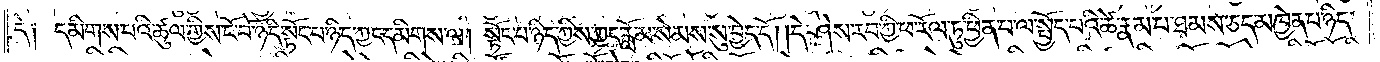དེ༑ དམིགས་པའི་ཚུལ་གྱིས་ངོ་བོ་ཉིད་སྟོང་པ་ཉིད་ཀྱང་དམིགས་ལ། སྟོང་པ་ཉིད་ཀྱིས་ཀྱང་རློམ་སེམས་སུ་བྱེད་དོ། །དེ་ཤེས་རབ་ཀྱི་ཕ་རོལ་ཏུ་ཕྱིན་པ་ལ་སྤྱོད་པའི་ཚེ་རྣམ་པ་ཐམས་ཅད་མཁྱེན་པ་ཉིད་
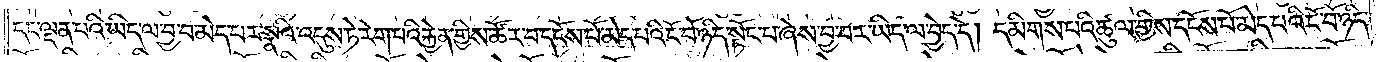དང་ལྡན་པའི་ཡིད་ལ་བྱ་བ་མེད་པར་སྣའི་འདུས་ཏེ་རེག་པའི་རྐྱེན་གྱིས་ཚོར་བ་དངོས་པོ་མེད་པའི་ངོ་བོ་ཉིད་སྟོང་པ་ཞེས་བྱ་བར་ཡིད་ལ་བྱེད་དེ། དམིགས་པའི་ཚུལ་གྱིས་དངོས་པོ་མེད་པའི་ངོ་བོ་ཉིད་
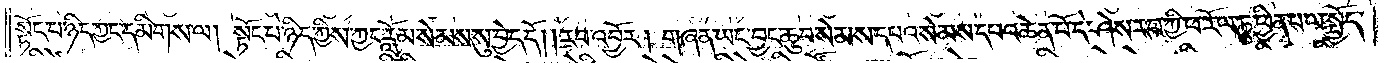སྟོང་པ་ཉིད་ཀྱང་དམིགས་ལ། སྟོང་པ་ཉིད་ཀྱིས་ཀྱང་རློམ་སེམས་སུ་བྱེད་དོ། །རབ་འབྱོར། གཞན་ཡང་བྱང་ཆུབ་སེམས་དཔའ་སེམས་དཔའ་ཆེན་པོ་དེ་ཤེས་རབ་ཀྱི་ཕ་རོལ་ཏུ་ཕྱིན་པ་ལ་སྤྱོད་
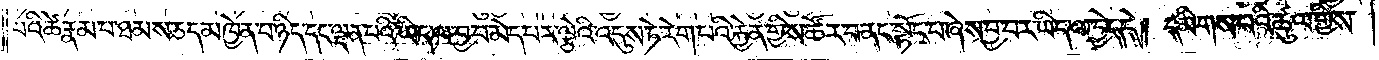པའི་ཚེ་རྣམ་པ་ཐམས་ཅད་མཁྱེན་པ་ཉིད་དང་ལྡན་པའི་ཡིད་ལ་བྱ་བ་མེད་པར་ལྕེའི་འདུས་ཏེ་རེག་པའི་རྐྱེན་གྱིས་ཚོར་བ་ནང་སྟོང་པ་ཞེས་བྱ་བར་ཡིད་ལ་བྱེད་དེ། དམིགས་པའི་ཚུལ་གྱིས་
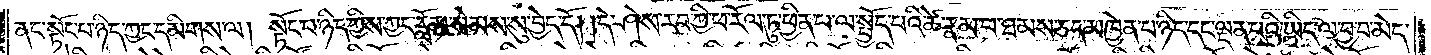ནང་སྟོང་པ་ཉིད་ཀྱང་དམིགས་ལ། སྟོང་པ་ཉིད་ཀྱིས་ཀྱང་རློམ་སེམས་སུ་བྱེད་དོ། །དེ་ཤེས་རབ་ཀྱི་ཕ་རོལ་ཏུ་ཕྱིན་པ་ལ་སྤྱོད་པའི་ཚེ་རྣམ་པ་ཐམས་ཅད་མཁྱེན་པ་ཉིད་དང་ལྡན་པའི་ཡིད་ལ་བྱ་བ་མེད་
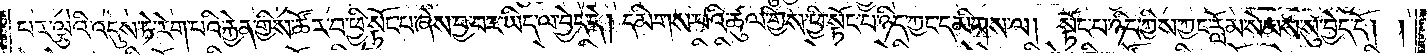པར་ལྕེའི་འདུས་ཏེ་རེག་པའི་རྐྱེན་གྱིས་ཚོར་བ་ཕྱི་སྟོང་པ་ཞེས་བྱ་བར་ཡིད་ལ་བྱེད་དེ། དམིགས་པའི་ཚུལ་གྱིས་ཕྱི་སྟོང་པ་ཉིད་ཀྱང་དམིགས་ལ། སྟོང་པ་ཉིད་ཀྱིས་ཀྱང་རློམ་སེམས་སུ་བྱེད་དོ། །
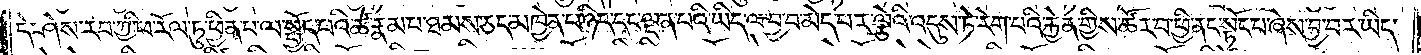དེ་ཤེས་རབ་ཀྱི་ཕ་རོལ་ཏུ་ཕྱིན་པ་ལ་སྤྱོད་པའི་ཚེ་རྣམ་པ་ཐམས་ཅད་མཁྱེན་པ་ཉིད་དང་ལྡན་པའི་ཡིད་ལ་བྱ་བ་མེད་པར་ལྕེའི་འདུས་ཏེ་རེག་པའི་རྐྱེན་གྱིས་ཚོར་བ་ཕྱི་ནང་སྟོང་པ་ཞེས་བྱ་བར་ཡིད་
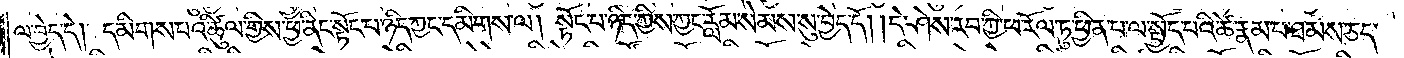ལ་བྱེད་དེ། དམིགས་པའི་ཚུལ་གྱིས་ཕྱི་ནང་སྟོང་པ་ཉིད་ཀྱང་དམིགས་ལ། སྟོང་པ་ཉིད་ཀྱིས་ཀྱང་རློམ་སེམས་སུ་བྱེད་དོ། །དེ་ཤེས་རབ་ཀྱི་ཕ་རོལ་ཏུ་ཕྱིན་པ་ལ་སྤྱོད་པའི་ཚེ་རྣམ་པ་ཐམས་ཅད་
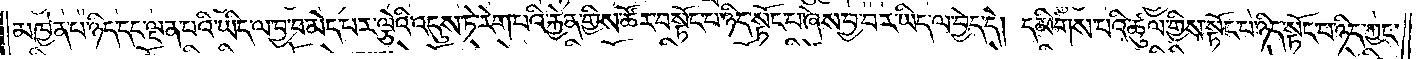མཁྱེན་པ་ཉིད་དང་ལྡན་པའི་ཡིད་ལ་བྱ་བ་མེད་པར་ལྕེའི་འདུས་ཏེ་རེག་པའི་རྐྱེན་གྱིས་ཚོར་བ་སྟོང་པ་ཉིད་སྟོང་པ་ཞེས་བྱ་བར་ཡིད་ལ་བྱེད་དེ། དམིགས་པའི་ཚུལ་གྱིས་སྟོང་པ་ཉིད་སྟོང་པ་ཉིད་ཀྱང་
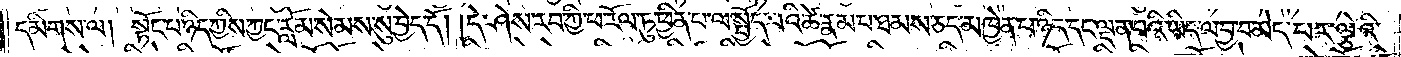དམིགས་ལ། སྟོང་པ་ཉིད་ཀྱིས་ཀྱང་རློམ་སེམས་སུ་བྱེད་དོ། །དེ་ཤེས་རབ་ཀྱི་ཕ་རོལ་ཏུ་ཕྱིན་པ་ལ་སྤྱོད་པའི་ཚེ་རྣམ་པ་ཐམས་ཅད་མཁྱེན་པ་ཉིད་དང་ལྡན་པའི་ཡིད་ལ་བྱ་བ་མེད་པར་ལྕེའི་
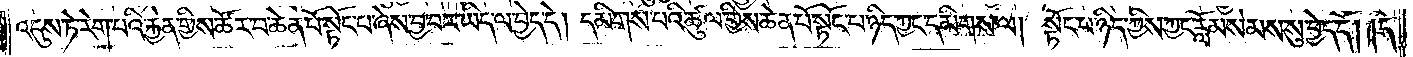འདུས་ཏེ་རེག་པའི་རྐྱེན་གྱིས་ཚོར་བ་ཆེན་པོ་སྟོང་པ་ཞེས་བྱ་བར་ཡིད་ལ་བྱེད་དེ། དམིགས་པའི་ཚུལ་གྱིས་ཆེན་པོ་སྟོང་པ་ཉིད་ཀྱང་དམིགས་ལ། སྟོང་པ་ཉིད་ཀྱིས་ཀྱང་རློམ་སེམས་སུ་བྱེད་དོ། །དེ་
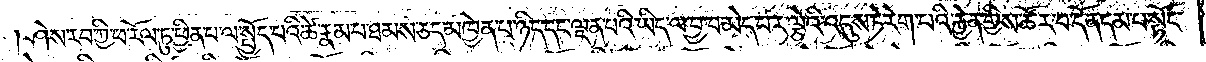ཤེས་རབ་ཀྱི་ཕ་རོལ་ཏུ་ཕྱིན་པ་ལ་སྤྱོད་པའི་ཚེ་རྣམ་པ་ཐམས་ཅད་མཁྱེན་པ་ཉིད་དང་ལྡན་པའི་ཡིད་ལ་བྱ་བ་མེད་པར་ལྕེའི་འདུས་ཏེ་རེག་པའི་རྐྱེན་གྱིས་ཚོར་བ་དོན་དམ་པ་སྟོང་
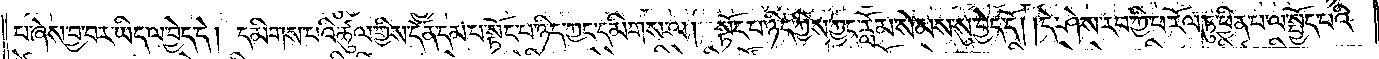པ་ཞེས་བྱ་བར་ཡིད་ལ་བྱེད་དེ། དམིགས་པའི་ཚུལ་གྱིས་དོན་དམ་པ་སྟོང་པ་ཉིད་ཀྱང་དམིགས་ལ། སྟོང་པ་ཉིད་ཀྱིས་ཀྱང་རློམ་སེམས་སུ་བྱེད་དོ། །དེ་ཤེས་རབ་ཀྱི་ཕ་རོལ་ཏུ་ཕྱིན་པ་ལ་སྤྱོད་པའི་
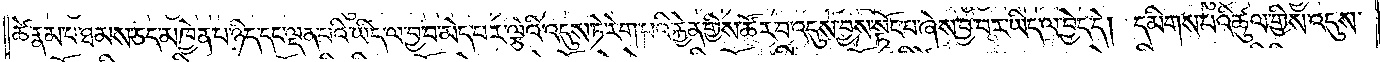ཚེ་རྣམ་པ་ཐམས་ཅད་མཁྱེན་པ་ཉིད་དང་ལྡན་པའི་ཡིད་ལ་བྱ་བ་མེད་པར་ལྕེའི་འདུས་ཏེ་རེག་པའི་རྐྱེན་གྱིས་ཚོར་བ་འདུས་བྱས་སྟོང་པ་ཞེས་བྱ་བར་ཡིད་ལ་བྱེད་དེ། དམིགས་པའི་ཚུལ་གྱིས་འདུས་
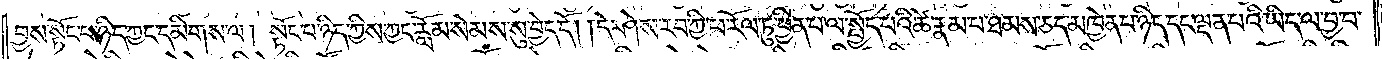བྱས་སྟོང་པ་ཉིད་ཀྱང་དམིགས་ལ། སྟོང་པ་ཉིད་ཀྱིས་ཀྱང་རློམ་སེམས་སུ་བྱེད་དོ། །དེ་ཤེས་རབ་ཀྱི་ཕ་རོལ་ཏུ་ཕྱིན་པ་ལ་སྤྱོད་པའི་ཚེ་རྣམ་པ་ཐམས་ཅད་མཁྱེན་པ་ཉིད་དང་ལྡན་པའི་ཡིད་ལ་བྱ་བ་
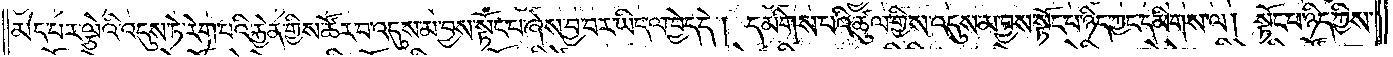མེད་པར་ལྕེའི་འདུས་ཏེ་རེག་པའི་རྐྱེན་གྱིས་ཚོར་བ་འདུས་མ་བྱས་སྟོང་པ་ཞེས་བྱ་བར་ཡིད་ལ་བྱེད་དེ། དམིགས་པའི་ཚུལ་གྱིས་འདུས་མ་བྱས་སྟོང་པ་ཉིད་ཀྱང་དམིགས་ལ། སྟོང་པ་ཉིད་ཀྱིས་
